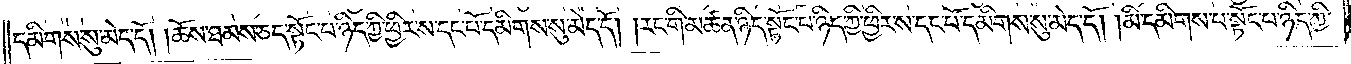དམིགས་སུ་མེད་དོ། །ཆོས་ཐམས་ཅད་སྟོང་པ་ཉིད་ཀྱི་ཕྱིར་ས་དང་པོ་དམིགས་སུ་མེད་དོ། །རང་གི་མཚན་ཉིད་སྟོང་པ་ཉིད་ཀྱི་ཕྱིར་ས་དང་པོ་དམིགས་སུ་མེད་དོ། །མི་དམིགས་པ་སྟོང་པ་ཉིད་ཀྱི་
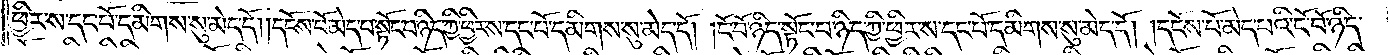ཕྱིར་ས་དང་པོ་དམིགས་སུ་མེད་དོ། །དངོས་པོ་མེད་པ་སྟོང་པ་ཉིད་ཀྱི་ཕྱིར་ས་དང་པོ་དམིགས་སུ་མེད་དོ། །ངོ་བོ་ཉིད་སྟོང་པ་ཉིད་ཀྱི་ཕྱིར་ས་དང་པོ་དམིགས་སུ་མེད་དོ། །དངོས་པོ་མེད་པའི་ངོ་བོ་ཉིད་
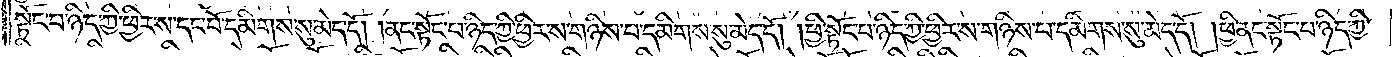སྟོང་པ་ཉིད་ཀྱི་ཕྱིར་ས་དང་པོ་དམིགས་སུ་མེད་དོ། །ནང་སྟོང་པ་ཉིད་ཀྱི་ཕྱིར་ས་གཉིས་པ་དམིགས་སུ་མེད་དོ། །ཕྱི་སྟོང་པ་ཉིད་ཀྱི་ཕྱིར་ས་གཉིས་པ་དམིགས་སུ་མེད་དོ། །ཕྱི་ནང་སྟོང་པ་ཉིད་ཀྱི་
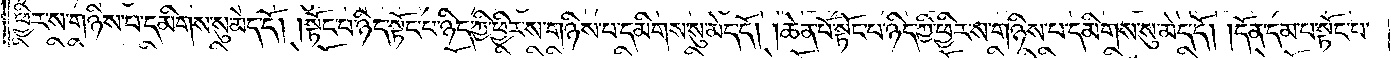ཕྱིར་ས་གཉིས་པ་དམིགས་སུ་མེད་དོ། །སྟོང་པ་ཉིད་སྟོང་པ་ཉིད་ཀྱི་ཕྱིར་ས་གཉིས་པ་དམིགས་སུ་མེད་དོ། །ཆེན་པོ་སྟོང་པ་ཉིད་ཀྱི་ཕྱིར་ས་གཉིས་པ་དམིགས་སུ་མེད་དོ། །དོན་དམ་པ་སྟོང་པ་
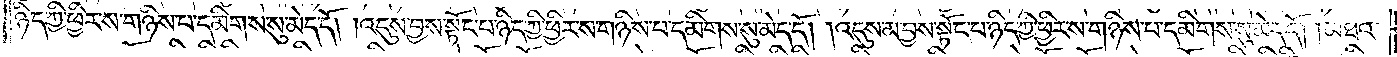ཉིད་ཀྱི་ཕྱིར་ས་གཉིས་པ་དམིགས་སུ་མེད་དོ། །འདུས་བྱས་སྟོང་པ་ཉིད་ཀྱི་ཕྱིར་ས་གཉིས་པ་དམིགས་སུ་མེད་དོ། །འདུས་མ་བྱས་སྟོང་པ་ཉིད་ཀྱི་ཕྱིར་ས་གཉིས་པ་དམིགས་སུ་མེད་དོ། །མཐའ་
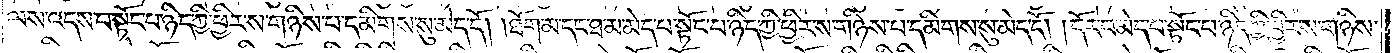ལས་འདས་པ་སྟོང་པ་ཉིད་ཀྱི་ཕྱིར་ས་གཉིས་པ་དམིགས་སུ་མེད་དོ། །ཐོག་མ་དང་ཐ་མ་མེད་པ་སྟོང་པ་ཉིད་ཀྱི་ཕྱིར་ས་གཉིས་པ་དམིགས་སུ་མེད་དོ། །དོར་བ་མེད་པ་སྟོང་པ་ཉིད་ཀྱི་ཕྱིར་ས་གཉིས་
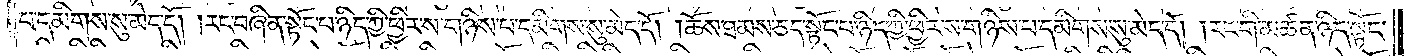པ་དམིགས་སུ་མེད་དོ། །རང་བཞིན་སྟོང་པ་ཉིད་ཀྱི་ཕྱིར་ས་གཉིས་པ་དམིགས་སུ་མེད་དོ། །ཆོས་ཐམས་ཅད་སྟོང་པ་ཉིད་ཀྱི་ཕྱིར་ས་གཉིས་པ་དམིགས་སུ་མེད་དོ། །རང་གི་མཚན་ཉིད་སྟོང་
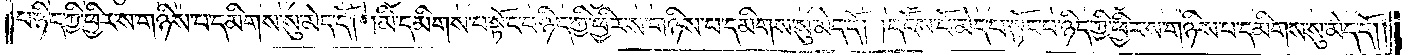པ་ཉིད་ཀྱི་ཕྱིར་ས་གཉིས་པ་དམིགས་སུ་མེད་དོ། །མི་དམིགས་པ་སྟོང་པ་ཉིད་ཀྱི་ཕྱིར་ས་གཉིས་པ་དམིགས་སུ་མེད་དོ། །དངོས་པོ་མེད་པ་སྟོང་པ་ཉིད་ཀྱི་ཕྱིར་ས་གཉིས་པ་དམིགས་སུ་མེད་དོ། །
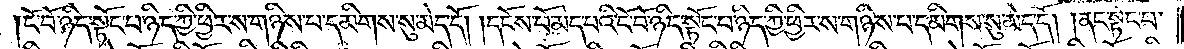ངོ་བོ་ཉིད་སྟོང་པ་ཉིད་ཀྱི་ཕྱིར་ས་གཉིས་པ་དམིགས་སུ་མེད་དོ། །དངོས་པོ་མེད་པའི་ངོ་བོ་ཉིད་སྟོང་པ་ཉིད་ཀྱི་ཕྱིར་ས་གཉིས་པ་དམིགས་སུ་མེད་དོ། །ནང་སྟོང་པ་
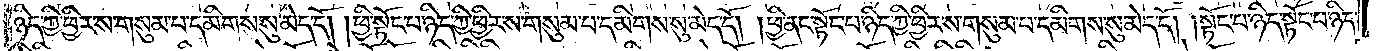ཉིད་ཀྱི་ཕྱིར་ས་གསུམ་པ་དམིགས་སུ་མེད་དོ། །ཕྱི་སྟོང་པ་ཉིད་ཀྱི་ཕྱིར་ས་གསུམ་པ་དམིགས་སུ་མེད་དོ། །ཕྱི་ནང་སྟོང་པ་ཉིད་ཀྱི་ཕྱིར་ས་གསུམ་པ་དམིགས་སུ་མེད་དོ། །སྟོང་པ་ཉིད་སྟོང་པ་ཉིད་
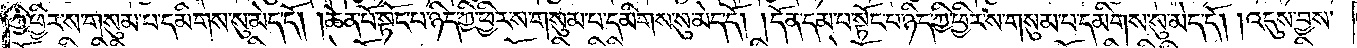ཀྱི་ཕྱིར་ས་གསུམ་པ་དམིགས་སུ་མེད་དོ། །ཆེན་པོ་སྟོང་པ་ཉིད་ཀྱི་ཕྱིར་ས་གསུམ་པ་དམིགས་སུ་མེད་དོ། །དོན་དམ་པ་སྟོང་པ་ཉིད་ཀྱི་ཕྱིར་ས་གསུམ་པ་དམིགས་སུ་མེད་དོ། །འདུས་བྱས་
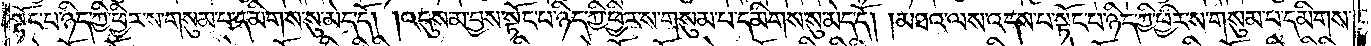སྟོང་པ་ཉིད་ཀྱི་ཕྱིར་ས་གསུམ་པ་དམིགས་སུ་མེད་དོ། །འདུས་མ་བྱས་སྟོང་པ་ཉིད་ཀྱི་ཕྱིར་ས་གསུམ་པ་དམིགས་སུ་མེད་དོ། །མཐའ་ལས་འདས་པ་སྟོང་པ་ཉིད་ཀྱི་ཕྱིར་ས་གསུམ་པ་དམིགས་
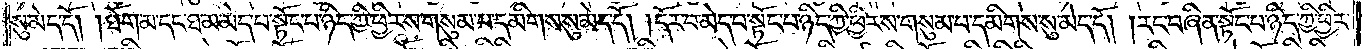སུ་མེད་དོ། །ཐོག་མ་དང་ཐ་མ་མེད་པ་སྟོང་པ་ཉིད་ཀྱི་ཕྱིར་ས་གསུམ་པ་དམིགས་སུ་མེད་དོ། །དོར་བ་མེད་པ་སྟོང་པ་ཉིད་ཀྱི་ཕྱིར་ས་གསུམ་པ་དམིགས་སུ་མེད་དོ། །རང་བཞིན་སྟོང་པ་ཉིད་ཀྱི་ཕྱིར་
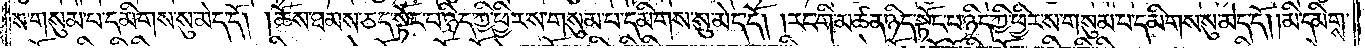ས་གསུམ་པ་དམིགས་སུ་མེད་དོ། །ཆོས་ཐམས་ཅད་སྟོང་པ་ཉིད་ཀྱི་ཕྱིར་ས་གསུམ་པ་དམིགས་སུ་མེད་དོ། །རང་གི་མཚན་ཉིད་སྟོང་པ་ཉིད་ཀྱི་ཕྱིར་ས་གསུམ་པ་དམིགས་སུ་མེད་དོ། །མི་དམིགས་
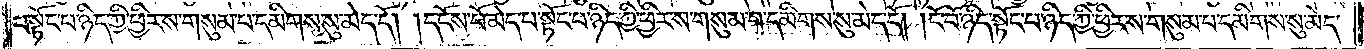པ་སྟོང་པ་ཉིད་ཀྱི་ཕྱིར་ས་གསུམ་པ་དམིགས་སུ་མེད་དོ། །དངོས་པོ་མེད་པ་སྟོང་པ་ཉིད་ཀྱི་ཕྱིར་ས་གསུམ་པ་དམིགས་སུ་མེད་དོ། །ངོ་བོ་ཉིད་སྟོང་པ་ཉིད་ཀྱི་ཕྱིར་ས་གསུམ་པ་དམིགས་སུ་མེད་
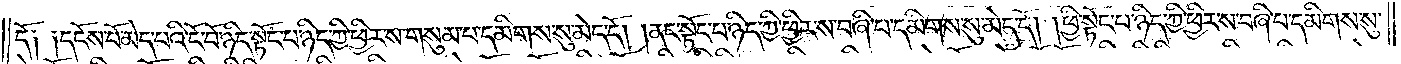དོ༏ ༏དངོས་པོ་མེད་པའི་ངོ་བོ་ཉིད་སྟོང་པ་ཉིད་ཀྱི་ཕྱིར་ས་གསུམ་པ་དམིགས་སུ་མེད་དོ། །ནང་སྟོང་པ་ཉིད་ཀྱི་ཕྱིར་ས་བཞི་པ་དམིགས་སུ་མེད་དོ། །ཕྱི་སྟོང་པ་ཉིད་ཀྱི་ཕྱིར་ས་བཞི་པ་དམིགས་སུ་
